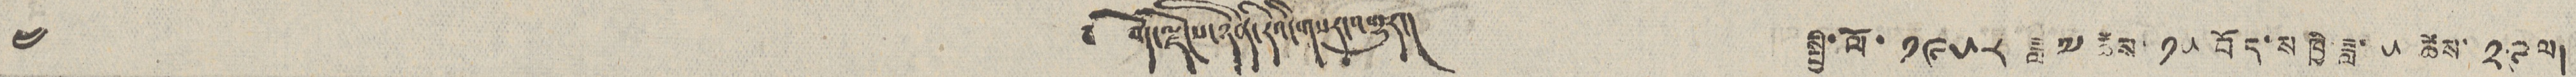༤ ༄ བོད་ལྗོངས་ཉིན་རེའི་གསར་འགྱུར། སྤྱི་ལོ་ ༡༩༥༨ ཟླ་ ༧ ཚེས་ ༡༥ བོད་ས་ཁྱི་ཟླ ༥ ཚེས་ ༢༩ ལ།
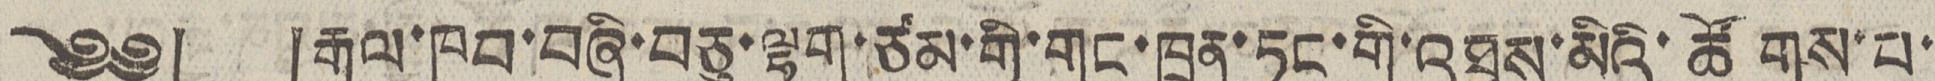༄༅། །རྒྱལ་ཁབ་བཞི་བཅུ་ལྷག་ཙམ་གྱི་གུང་ཁྲན་ཏང་གི་འཐུས་མིའི་ཚོགས་པ་
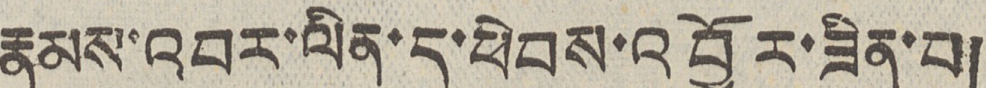རྣམས་འབར་ལིན་དུ་ཕེབས་འབྱོར་ཟིན་པ།
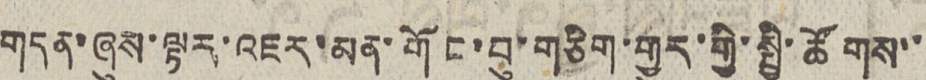གདན་ཞུས་ལྟར་འཇར་མན་གོང་བུ་གཅིག་གྱུར་གྱི་སྤྱི་ཚོགས་་
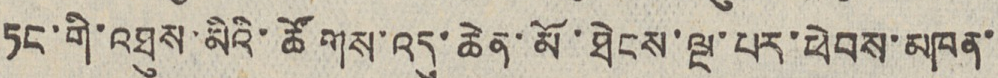ཏང་གི་འཐུས་མིའི་ཚོགས་འདུ་ཆེན་མོ་ཐེངས་ལྔ་པར་ཕེབས་མཁན་
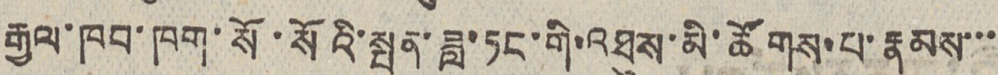རྒྱལ་ཁབ་ཁག་སོ་སོའི་སྤུན་ཟླ་ཏང་གི་འཐུས་མི་ཚོགས་པ་རྣམས་་་
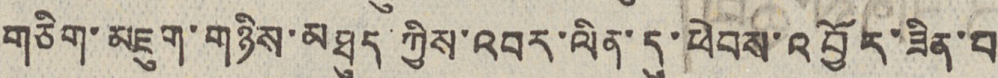གཅིག་མཇུག་གཉིས་མཐུད་ཀྱིས་འབར་ལིན་དུ་ཕེབས་འབྱོར་ཟིན་པ
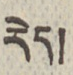རེད།
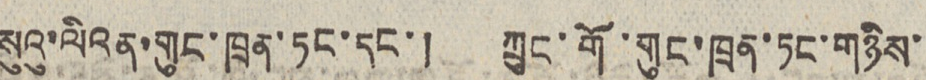སུའུ་ལིའན་གུང་ཁྲན་ཏང་དང་། ཀྲུང་གོ་གུང་ཁྲན་ཏང་གཉིས་
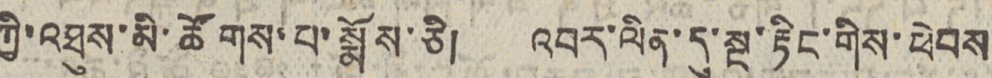ཀྱི་འཐུས་མི་ཚོགས་པ་སྨོས་ཅི། འབར་ལིན་དུ་སྔ་རྟིང་གིས་ཕེབས
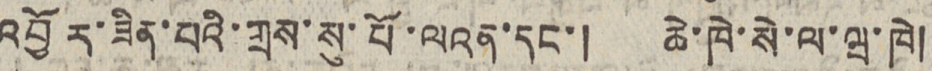འབྱོར་ཟིན་པའི་གྲས་སུ་པོ་ལའན་དང་། ཆེ་ཁེ་སེ་ལ་ཝ་ཁེ།
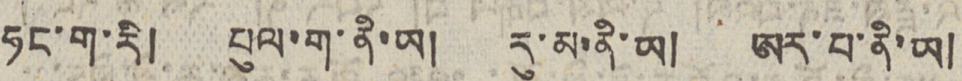ཧང་ག་རི། པུལ་ག་ནི་ཡ། རུ་མ་ནི་ཡ། ཨར་པ་ནི་ཡ།
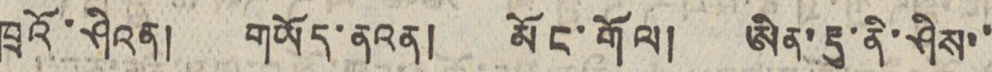ཁྲའོ་ཤིའན། གཡོད་ནའན། མོང་གོལ། ཨིན་རྡུ་ནི་ཤིས་་
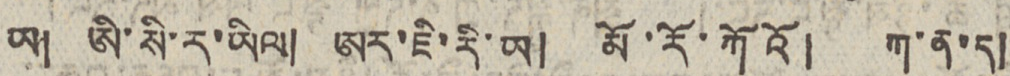ཡ། ཨི་སི་ར་ཡིལ། ཨར་ཇི་རི་ཡ། མོ་རོ་ཀོའོ། ཀ་ན་ད།
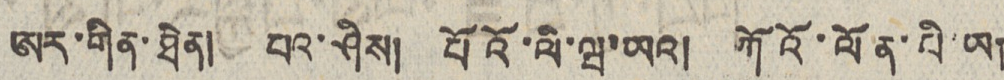ཨར་གིན་ཐེན། པའ་ཤིས། པོའོ་ལི་ཝ་ཡའ། ཀོའོ་ལོན་པི་ཡ།
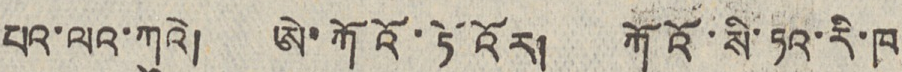པའ་ལའ་ཀུའེ། ཨེ་ཀོའོ་ཏོ འོར། ཀོའོ་སི་ཏ་རི་ཁ།
